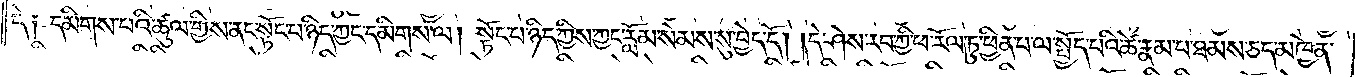དེ༑ དམིགས་པའི་ཚུལ་གྱིས་ནང་སྟོང་པ་ཉིད་ཀྱང་དམིགས་ལ། སྟོང་པ་ཉིད་ཀྱིས་ཀྱང་རློམ་སེམས་སུ་བྱེད་དོ། །དེ་ཤེས་རབ་ཀྱི་ཕ་རོལ་ཏུ་ཕྱིན་པ་ལ་སྤྱོད་པའི་ཚེ་རྣམ་པ་ཐམས་ཅད་མཁྱེན་
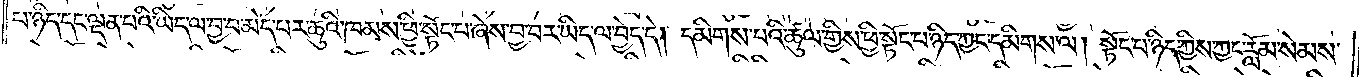པ་ཉིད་དང་ལྡན་པའི་ཡིད་ལ་བྱ་བ་མེད་པར་ཆུའི་ཁམས་ཕྱི་སྟོང་པ་ཞེས་བྱ་བར་ཡིད་ལ་བྱེད་དེ། དམིགས་པའི་ཚུལ་གྱིས་ཕྱི་སྟོང་པ་ཉིད་ཀྱང་དམིགས་ལ། སྟོང་པ་ཉིད་ཀྱིས་ཀྱང་རློམ་སེམས་
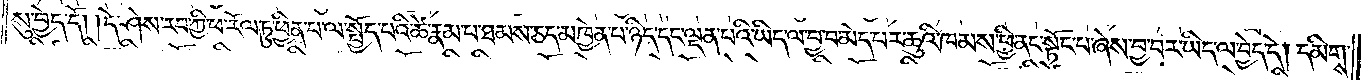སུ་བྱེད་དོ། །དེ་ཤེས་རབ་ཀྱི་ཕ་རོལ་ཏུ་ཕྱིན་པ་ལ་སྤྱོད་པའི་ཚེ་རྣམ་པ་ཐམས་ཅད་མཁྱེན་པ་ཉིད་དང་ལྡན་པའི་ཡིད་ལ་བྱ་བ་མེད་པར་ཆུའི་ཁམས་ཕྱི་ནང་སྟོང་པ་ཞེས་བྱ་བར་ཡིད་ལ་བྱེད་དེ། དམིགས་
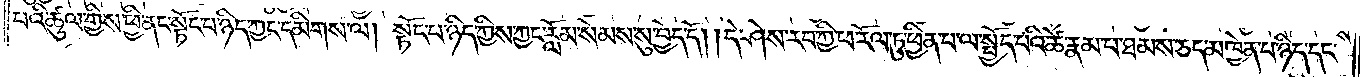པའི་ཚུལ་གྱིས་ཕྱི་ནང་སྟོང་པ་ཉིད་ཀྱང་དམིགས་ལ། སྟོང་པ་ཉིད་ཀྱིས་ཀྱང་རློམ་སེམས་སུ་བྱེད་དོ། །དེ་ཤེས་རབ་ཀྱི་ཕ་རོལ་ཏུ་ཕྱིན་པ་ལ་སྤྱོད་པའི་ཚེ་རྣམ་པ་ཐམས་ཅད་མཁྱེན་པ་ཉིད་དང་
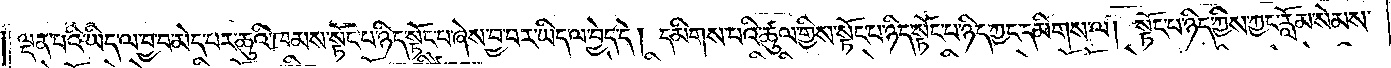ལྡན་པའི་ཡིད་ལ་བྱ་བ་མེད་པར་ཆུའི་ཁམས་སྟོང་པ་ཉིད་སྟོང་པ་ཞེས་བྱ་བར་ཡིད་ལ་བྱེད་དེ། དམིགས་པའི་ཚུལ་གྱིས་སྟོང་པ་ཉིད་སྟོང་པ་ཉིད་ཀྱང་དམིགས་ལ། སྟོང་པ་ཉིད་ཀྱིས་ཀྱང་རློམ་སེམས་
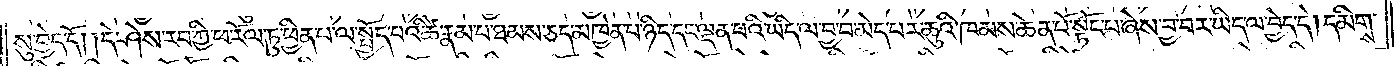སུ་བྱེད་དོ། །དེ་ཤེས་རབ་ཀྱི་ཕ་རོལ་ཏུ་ཕྱིན་པ་ལ་སྤྱོད་པའི་ཚེ་རྣམ་པ་ཐམས་ཅད་མཁྱེན་པ་ཉིད་དང་ལྡན་པའི་ཡིད་ལ་བྱ་བ་མེད་པར་ཆུའི་ཁམས་ཆེན་པོ་སྟོང་པ་ཞེས་བྱ་བར་ཡིད་ལ་བྱེད་དེ། དམིགས་
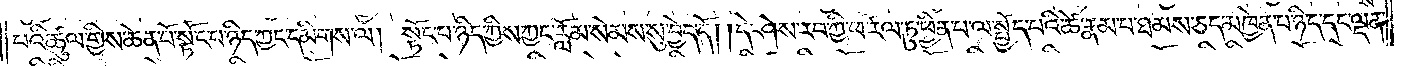པའི་ཚུལ་གྱིས་ཆེན་པོ་སྟོང་པ་ཉིད་ཀྱང་དམིགས་ལ། སྟོང་པ་ཉིད་ཀྱིས་ཀྱང་རློམ་སེམས་སུ་བྱེད་དོ། །དེ་ཤེས་རབ་ཀྱི་ཕ་རོལ་ཏུ་ཕྱིན་པ་ལ་སྤྱོད་པའི་ཚེ་རྣམ་པ་ཐམས་ཅད་མཁྱེན་པ་ཉིད་དང་ལྡན་
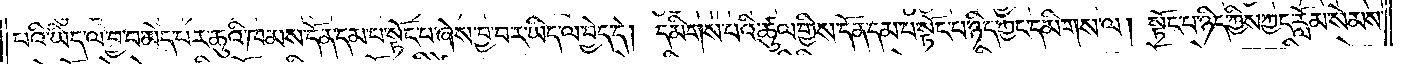པའི་ཡིད་ལ་བྱ་བ་མེད་པར་ཆུའི་ཁམས་དོན་དམ་པ་སྟོང་པ་ཞེས་བྱ་བར་ཡིད་ལ་བྱེད་དེ། དམིགས་པའི་ཚུལ་གྱིས་དོན་དམ་པ་སྟོང་པ་ཉིད་ཀྱང་དམིགས་ལ། སྟོང་པ་ཉིད་ཀྱིས་ཀྱང་རློམ་སེམས་
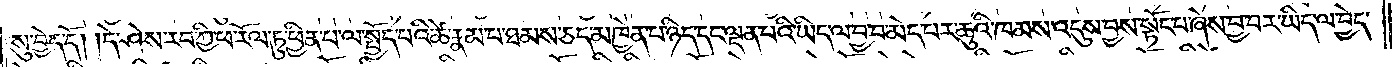སུ་བྱེད་དོ། །དེ་ཤེས་རབ་ཀྱི་ཕ་རོལ་ཏུ་ཕྱིན་པ་ལ་སྤྱོད་པའི་ཚེ་རྣམ་པ་ཐམས་ཅད་མཁྱེན་པ་ཉིད་དང་ལྡན་པའི་ཡིད་ལ་བྱ་བ་མེད་པར་ཆུའི་ཁམས་འདུས་བྱས་སྟོང་པ་ཞེས་བྱ་བར་ཡིད་ལ་བྱེད་
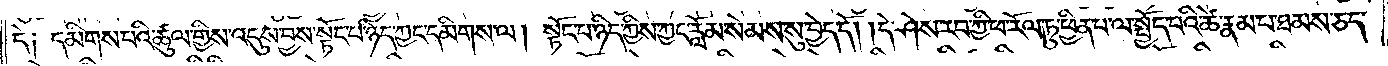དེ༑ དམིགས་པའི་ཚུལ་གྱིས་འདུས་བྱས་སྟོང་པ་ཉིད་ཀྱང་དམིགས་ལ། སྟོང་པ་ཉིད་ཀྱིས་ཀྱང་རློམ་སེམས་སུ་བྱེད་དོ། །དེ་ཤེས་རབ་ཀྱི་ཕ་རོལ་ཏུ་ཕྱིན་པ་ལ་སྤྱོད་པའི་ཚེ་རྣམ་པ་ཐམས་ཅད་
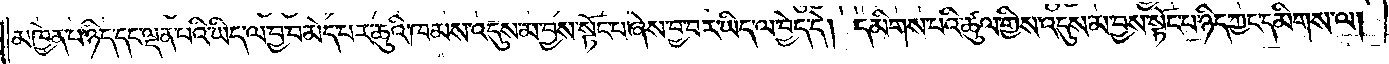མཁྱེན་པ་ཉིད་དང་ལྡན་པའི་ཡིད་ལ་བྱ་བ་མེད་པར་ཆུའི་ཁམས་འདུས་མ་བྱས་སྟོང་པ་ཞེས་བྱ་བར་ཡིད་ལ་བྱེད་དེ། དམིགས་པའི་ཚུལ་གྱིས་འདུས་མ་བྱས་སྟོང་པ་ཉིད་ཀྱང་དམིགས་ལ།
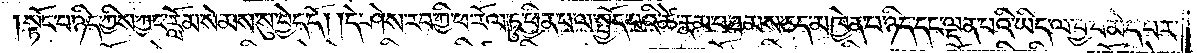སྟོང་པ་ཉིད་ཀྱིས་ཀྱང་རློམ་སེམས་སུ་བྱེད་དོ། །དེ་ཤེས་རབ་ཀྱི་ཕ་རོལ་ཏུ་ཕྱིན་པ་ལ་སྤྱོད་པའི་ཚེ་རྣམ་པ་ཐམས་ཅད་མཁྱེན་པ་ཉིད་དང་ལྡན་པའི་ཡིད་ལ་བྱ་བ་མེད་པར་
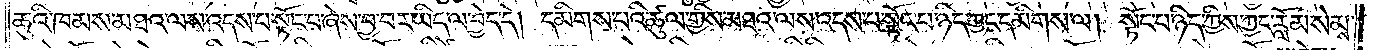ཆུའི་ཁམས་མཐའ་ལས་འདས་པ་སྟོང་པ་ཞེས་བྱ་བར་ཡིད་ལ་བྱེད་དེ། དམིགས་པའི་ཚུལ་གྱིས་མཐའ་ལས་འདས་པ་སྟོང་པ་ཉིད་ཀྱང་དམིགས་ལ། སྟོང་པ་ཉིད་ཀྱིས་ཀྱང་རློམ་སེམས་
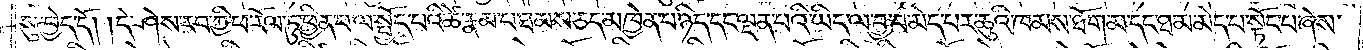སུ་བྱེད་དོ། །དེ་ཤེས་རབ་ཀྱི་ཕ་རོལ་ཏུ་ཕྱིན་པ་ལ་སྤྱོད་པའི་ཚེ་རྣམ་པ་ཐམས་ཅད་མཁྱེན་པ་ཉིད་དང་ལྡན་པའི་ཡིད་ལ་བྱ་བ་མེད་པར་ཆུའི་ཁམས་ཐོག་མ་དང་ཐ་མ་མེད་པ་སྟོང་པ་ཞེས་
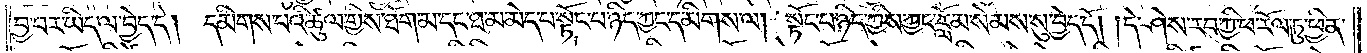བྱ་བར་ཡིད་ལ་བྱེད་དེ། དམིགས་པའི་ཚུལ་གྱིས་ཐོག་མ་དང་ཐ་མ་མེད་པ་སྟོང་པ་ཉིད་ཀྱང་དམིགས་ལ། སྟོང་པ་ཉིད་ཀྱིས་ཀྱང་རློམ་སེམས་སུ་བྱེད་དོ། །དེ་ཤེས་རབ་ཀྱི་ཕ་རོལ་ཏུ་ཕྱིན་
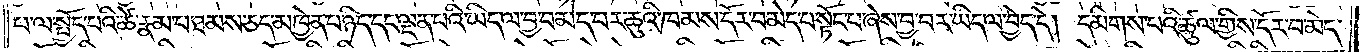པ་ལ་སྤྱོད་པའི་ཚེ་རྣམ་པ་ཐམས་ཅད་མཁྱེན་པ་ཉིད་དང་ལྡན་པའི་ཡིད་ལ་བྱ་བ་མེད་པར་ཆུའི་ཁམས་དོར་བ་མེད་པ་སྟོང་པ་ཞེས་བྱ་བར་ཡིད་ལ་བྱེད་དེ། དམིགས་པའི་ཚུལ་གྱིས་དོར་བ་མེད་
